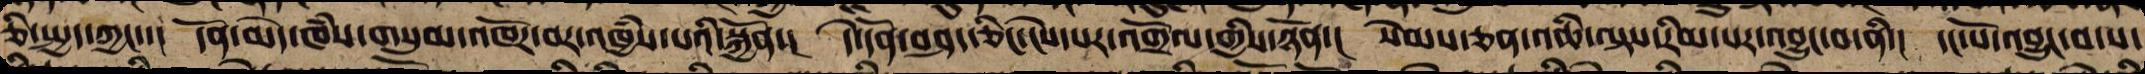ཅི་སྤྱད་ཀྱང་། དོན་མེད་ཁཾས་གསུམ་འཁོར་བར་འཁྱཾས་པའི་སྐྱོན་། དེ་དོན་བཤད་ཅིང་ངེས་པར་འགྲོལ་གྱིས་ཉོན་། སེམས་ཅན་འཆི་ལྟས་རིམ་པར་འབྱུང་བ་ནི་། དང་པོ་འབྱུང་བ་ས་
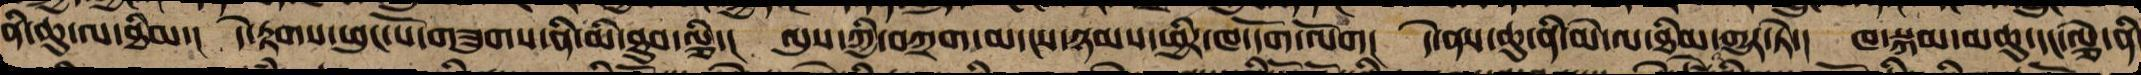ནི་ཆུ་ལ་ཐིམ་། དེ་རྟགས་ཕུང་པོ་གཟུགས་ནི་མི་ཐུབ་ལྕི་། ལུས་ཀྱི་བཀྲག་མདངས་ཉམས་ཕྱིར་ཁ་དོག་ལོག། དེ་ནས་ཆུ་ནི་མེ་ལ་ཐིམ་འགྱུར་ཏེ་། ཁ་སྐམ་མཆུ་དང་ལྕེ་ནི
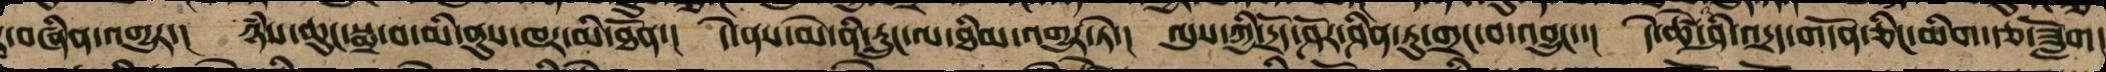་བཞིན་འགྱུར་། ཉཾས་ཆུང་སྨྲ་བ་མི་ནུས་ཁར་མི་ཐོན་། དེ་ནས་མེ་ནི་རླུང་ལ་ཐིམ་འགྱུར་ཏེ་། ལུས་ཀྱི་དྲོད་ཤོར་ཤིན་ཏུ་གྲང་བ་འབྱུང་། དེ་ཚེ་ཤི་འདྲད་གདོན་ཅིང་མིག་རྩ་ཟློག།
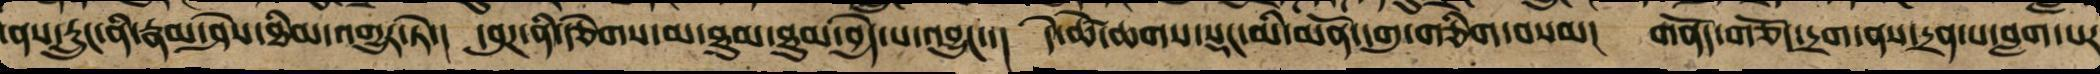་ནས་རླུང་ནི་རྣམ་ཤེས་ཐིམ་འགྱུར་ཏེ་། དབུཌ་ནི་བརྩེགས་མ་ཐུམ་ཐུམ་བྱེད་པ་འབྱུང་། དེ་ཚེ་ཆགས་སྡང་མི་མནོ་དགུ་གཅིག་བསམ། གནོད་གཅོད་དྲག་ནས་དྲན་པ་བླག་པར
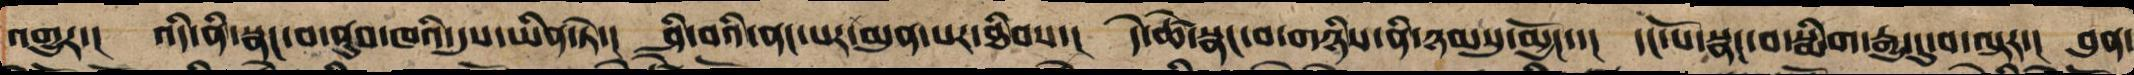འགྱུར་། འདི་ནི་སྣང་བ་ནུབ་ཁའི་དུས་ཡིན་ཏེ་། ཤི་བའི་ནང་པར་མུན་པར་ཐིམས་། དེ་ཚེ་སྣང་བ་གཉིས་ནི་ཉམསུ་མྱོང་་། དང་པོ་སྣང་བ་སྨིག་རྒྱུ་དུ་བ་ལྟར་། བུན་
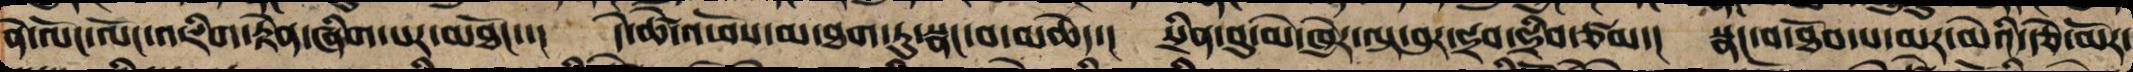ནེ་ལོང་ལོང་འཇིག་རྟེན་ཞིག་པར་མཐོང་། དེ་ཚེ་འཕོས་མ་ཐག་ཏུ་སྣང་བ་མཆེད་། སྲིན་བུ་མེ་ཁྱེར་ལྟ་བུར་ཧྲབ་ཧྲིབ་ཙམ་། སྣང་བ་ཐོབ་པ་མར་མེའི་རྩེ་མོར་
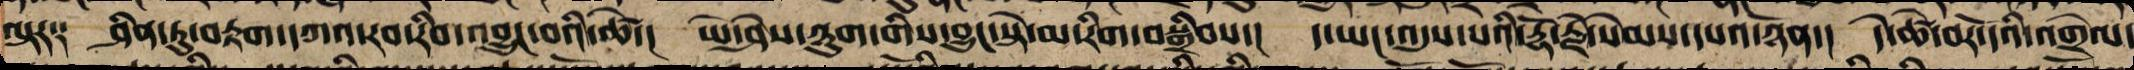ལྟར༑ ཤིན་ཏུ་བརྟག་དཀའ་རབ་རིབ་འབྱུང་བའི་ཚེ་། ཡེ་ཤེས་ཉུག་གིས་བྱུང་སྟེ་མ་རིག་བསྒྲིབས་། ད་ཡང་འདུས་པའི་རྡོ་རྗེ་སེམས་དཔའ་ཉོན་། དེ་ཚེ་བར་དོའི་འགྲེལ་
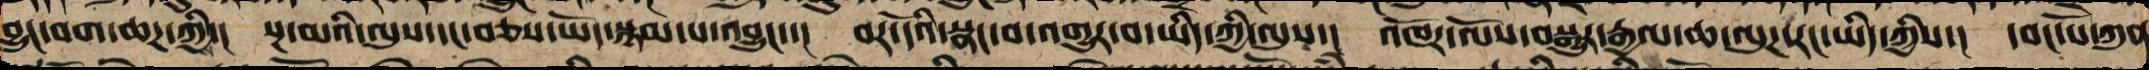བྱུང་བག་ཆཌ་ཀྱིས་། སྔ་མའི་ལུས་དང་བཅས་ཡོད་སྙམ་པ་འབྱུང་། བར་དོའི་སྣང་བ་འགྱུར་བ་ཡིད་ཀྱི་ལུས་། འཁོར་ལོས་བསྒྱུར་རྒྱལ་ཆ་ལུཌ་རང་ཡིད་ཀྱིས་། དབང་པོ་ཀུན་
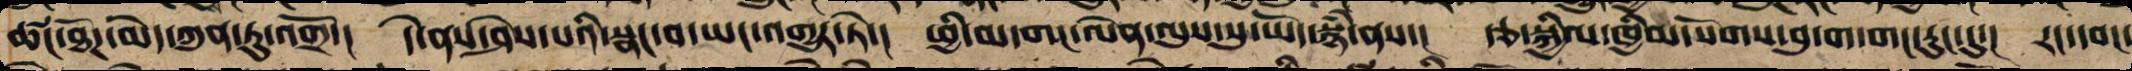ཚང་ཐོཌ་མེད་ཀུན་ཏུ་འགྲོ་། དེ་ནས་ཤེས་པའི་སྣང་བ་ཡང་འགྱུར་ཏེ་། ཕྱི་མ་གང་ལེན་ལུས་སུ་ཡོད་སྙཾ་ནས་། རྩྭ་སྐྱིལ་ཁྱིམ་སོགས་བླ་གབ་གང་རུང་དུ་། རང་དབང་
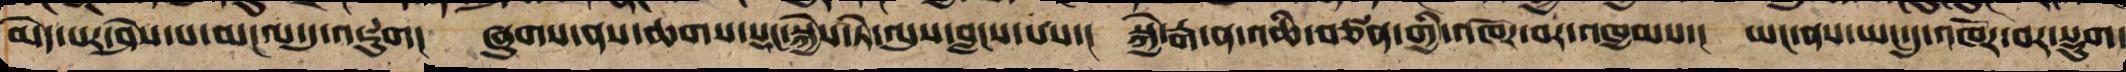མེད་པར་ཤེས་པ་མངལ་དུ་འཇུག། ཞུགས་ནས་ཆགས་སྡང་སྐྱེས་ཏེ་ལུས་བླངས་པས་། སྐྱེ་རྒ་ན་འཆི་ཅན་གྱི་འཁོར་བར་འཁྱམས་། ཡང་ནས་ཡང་དུ་འཁོར་བར་སྡུག་
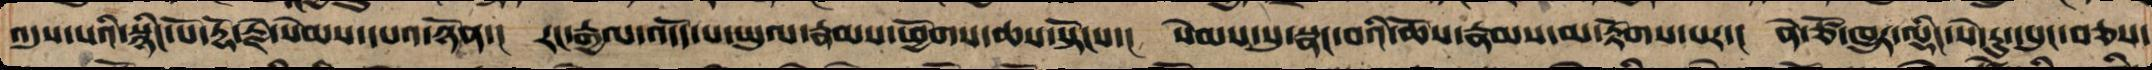འདུས་པའིསྙིང་པོ་་རྡོ་རྗེ་སེམས་དཔའ་ཉོན་། རང་རྒྱལ་འདོད་པ་ཡུལ་རྣམས་ཕྱོགས་ཆས་སྟོངས་། སེམས་སུ་སྣང་བའི་ཆོས་རྣམས་མ་རྟོགས་པར་། ནེ་ཙོ་ཁྱུ་ལྡིང་སེ་རུ་དཔུང་བཅས་
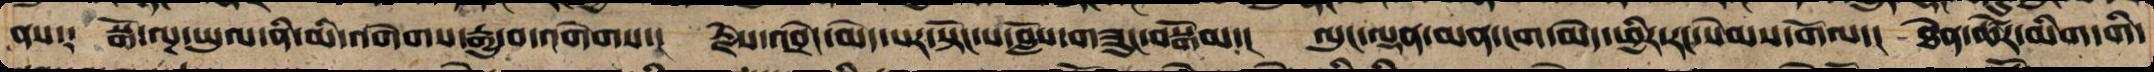ནས༑ སྒོ་ལྔ་ཡུལ་ནི་མི་འགེགས་རྒྱུ་བ་འགེགས་། རྗེས་འབྲེང་མེད་པར་སྟོང་པ་བློས་བཟུང་བསྒོམ་། ལུང་ལྡན་མན་ངག་མེད་ཕྱིར་རང་སེམས་གོལ་། ཐེན་ཚོར་མིག་གི་
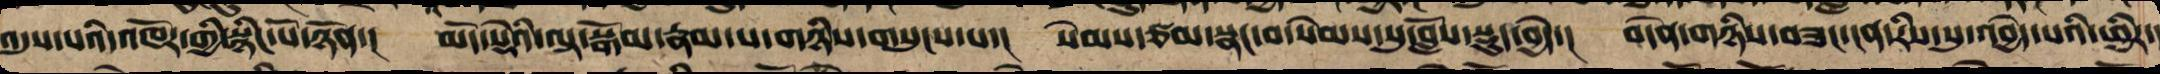འདུས་པའི་འཁོར་གྱི་སྙིང་པོ་ཉོན་། མདོ་སྡེའི་ལྟ་སྒོམ་རྣམ་པ་གཉིས་གསུངས་པ་། སེམས་ཙམ་སྣང་བ་སེམས་སུ་བློས་སྡུད་བྱེད་། བདེན་གཉིས་བཟང་ངན་རིས་སུ་འབྱེད་པའི་ཕྱིར་།
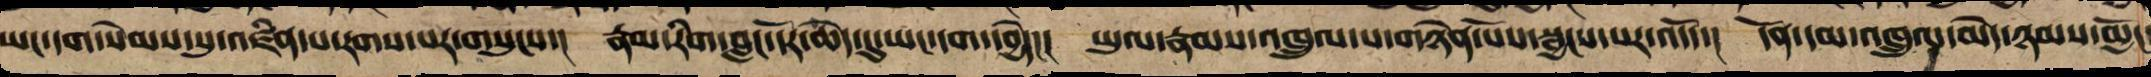ཡང་དག་སེམས་སུ་འཛིན་པ་རགས་པར་གསུངས་། རྣམ་རིག་བླང་དོར་ཆེད་དུ་ཡང་དག་བྱེད་། ཡུལ་རྣམས་འཁྲུལ་པ་གཉེན་པོས་སྦྱངས་བར་འདོད་། དོན་དམ་འཁྲུལ་མེད་ཉམས་མྱོང་
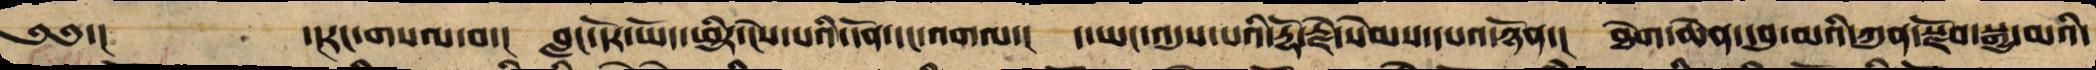༄༅་། ་།རང་གསལ་བ་། བླང་དོར་ཡོད་ཕྱིར་ངེས་པའི་དོན་དང་འགལ་། ད་ཡང་འདུས་པའི་རྡོ་རྗེ་སེམས་དཔའ་ཉོན་། ཐེག་ཆེན་དབུ་མའི་ཀུན་སྫོབ་སྒྱུ་མའི་
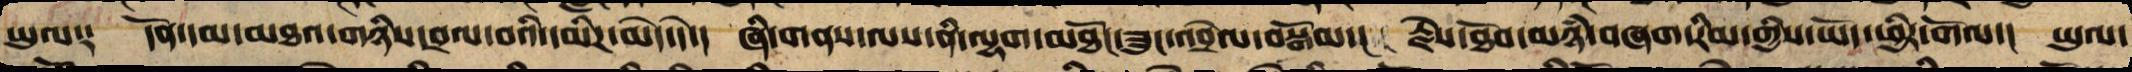ཡུལ༑ དོན་དམ་མཐའ་གཉིས་བྲལ་བའི་དམིཌ་མེད་དེ་། ཞི་གནས་དང་ནི་ལྷག་མཐོང་ཟུང་འབྲེལ་བསྒོམ་། རྗེས་ཐོབ་མཉཾ་བཞག་རིམ་གྱིས་ཡོད་ཕྱིར་གོལ་། ཡུལ་
